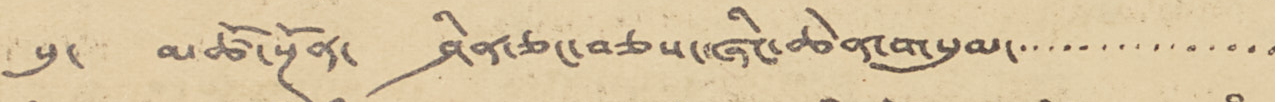སུ་ མཚོ་སྔོན་ ཤིང་ཅང་བཅས་ཞིང་ཆེན་གསུམ་་་་་་་་་་་་་་་་
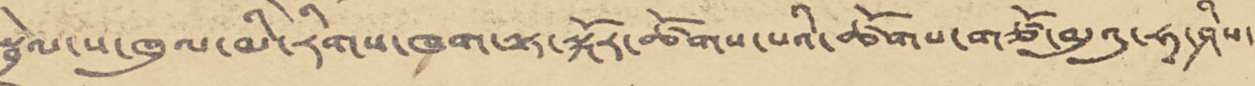སྦྲེལ་ས་ཁུལ་མི་རིགས་ཁག་ལྟ་སྐོར་ཚོགས་པའི་ཚོགས་གཙོ་མུའུ་ཧཱ་ཤིས་
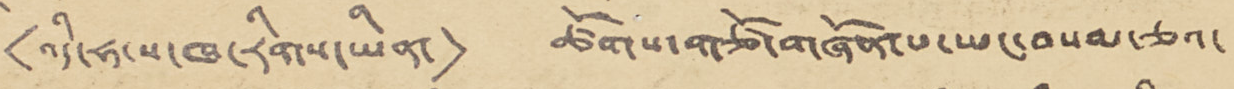<འདི་ཧ་ས་ཁ་རིགས་ཡིན་> ཚོགས་གཙོ་གཞོན་པ་ཡང་བསམ་ཅའ་
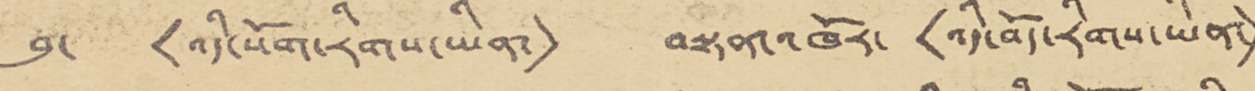བུ་ <འདི་སོག་རིགས་ཡིན་> བསྟན་འཁོར་ <འདི་བོད་རིགས་ཡིན་>
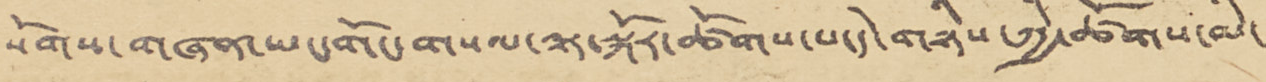སོགས་གཞན་ཡང་གོང་གསལ་ལྟ་སྐོར་ཚོགས་པ་དེ་གཉིས་ཀྱི་ཚོགས་མི་
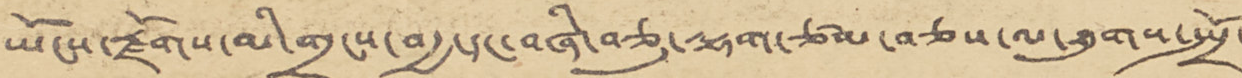ཡོངས་རྫོགས་མི་གྲངས་བརྒྱ་དང་བཞི་བཅུ་ལྷག་ཙམ་བཅས་ལ་ཐུགས་སྤྲོ་
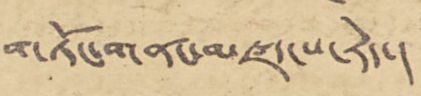གཏོང་གནང་མཛད་པ་རེད་།
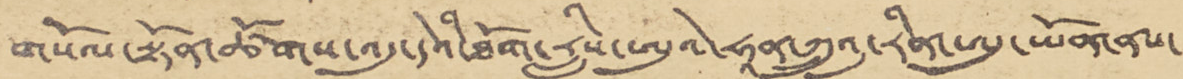གསོལ་སྟོན་ཚོགས་འདུ་དེའི་ཐོག་རླིས་ཨུའེ་ཧཱན་ཀྲུའུ་རིན་ཨུ་ཡོན་ནས་
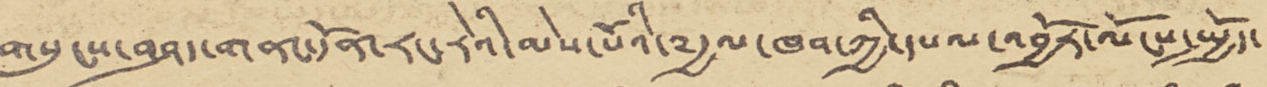གསུངས་བཤད་གནང་དོན་རངག་རེའི་མེས་པོའི་༸རྒྱལ་ཁབ་ཀྱི་དཔལ་འབྱོར་ལོངས་སྤྱོད་
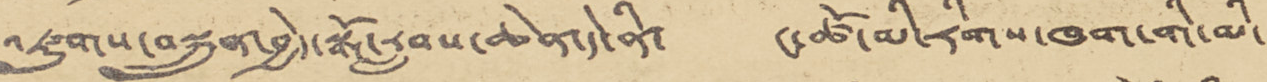འཛུགས་བསྐྲུན་བྱེད་སྒོ་རླབས་ཆེན་དེ་ནི་ ང་ཚོ་མི་རིགས་ཁག་གི་མི་
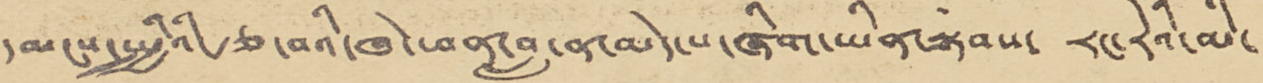དམངས་སྤྱིའི་རྩ་བའི་ཁེ་ཕན་བླ་ན་མེད་པ་ཞིག་ཡིན་སྟབས་ རང་རེའི་མི་
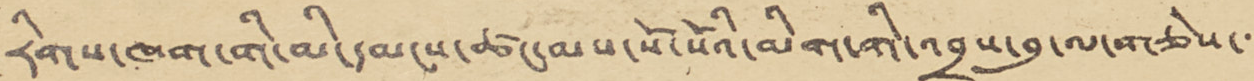རིགས་ཁག་གི་མི་དམངས་ཚང་མས་སོ་སོའི་མིག་གི་འབྲས་བུ་ལ་གཅེས་་་
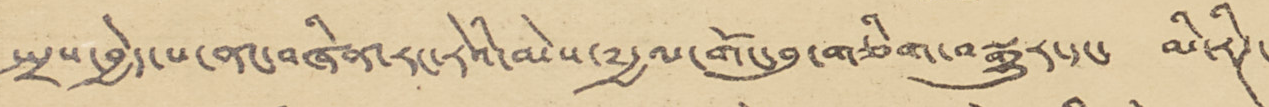སྤྲས་བྱེད་པ་ནང་བཞིན་རང་རེའི་མེས་༸རྒྱལ་གོང་བུ་གཅིག་བསྒྱུར་དང་ མི་རིཊ་
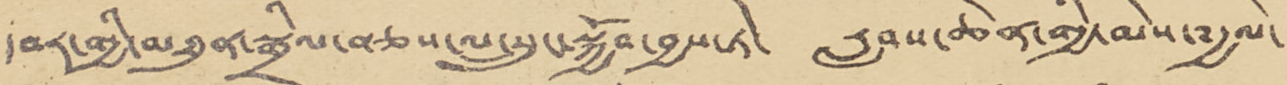དབར་གྱི་མཐུན་སྒྲིལ་བཅས་ལ་སྲུང་སྐྱོབ་བྱས་ཏེ་ རླབས་ཆེན་གྱི་མེས་༸རྒྱལ་
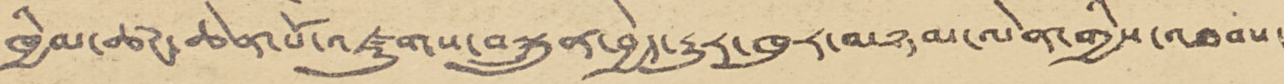ཁྱིམ་ཚང་ཆེན་པོ་འཛུགས་བསྐྲུན་བྱེད་རྒྱུར་ཁུར་མཉམ་ལེན་གྱིས་འཐབས་
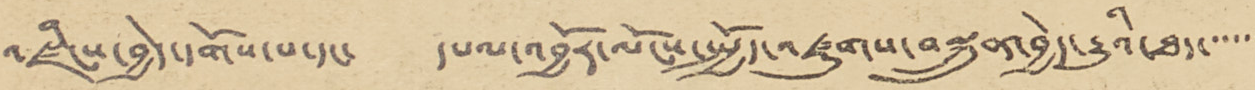འཛིངས་བྱེད་དགོས་པ་དང་ དཔལ་འབྱོར་ལོངས་སྤྱོད་འཛུགས་བསྐྲུན་བྱེད་རྒྱུའི་ཐད་་་་་་
